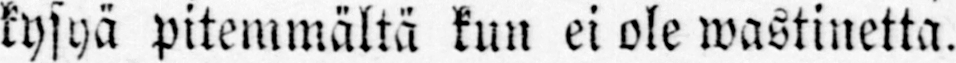kysyä pitemmältä kun ei ole wastinetta.
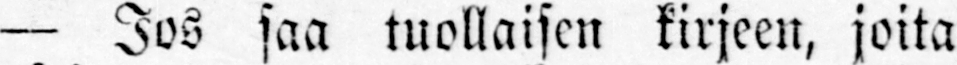— Jos saa tuollaisen kirjeen, joita
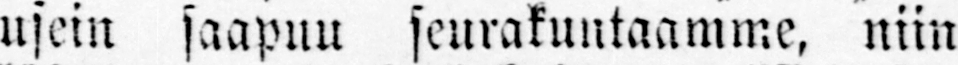usein saapuu seurakuntaamme, niin
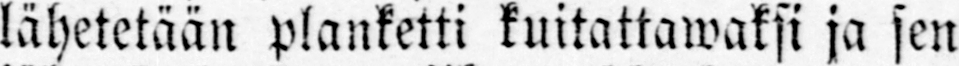lähetetään planketti kuitattawaksi ja sen
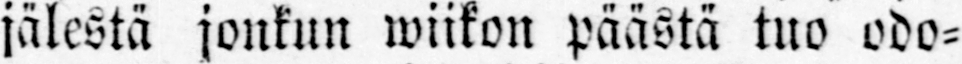jälestä jonkun wiikon päästä tuo odo-
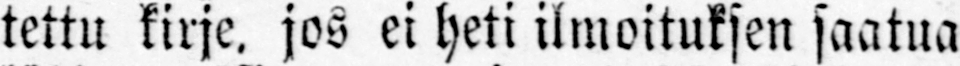tettu kirje, jos ei heti ilmoituksen saatua
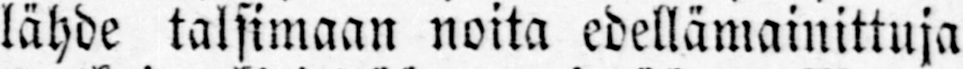lähde talsimaan noita edellämainittuja
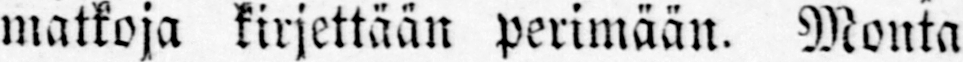matkoja kirjettään perimään. Monta
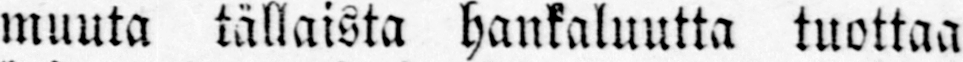muuta tällaista hankaluutta tuottaa
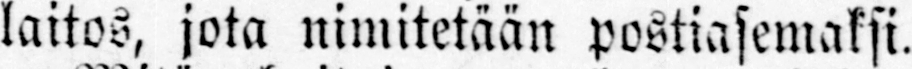laitos, jota nimitetään postiasemaksi.
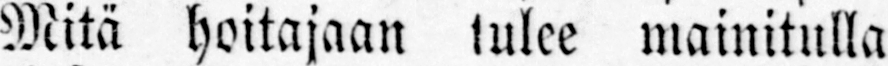Mitä hoitajaan tulee mainitulla
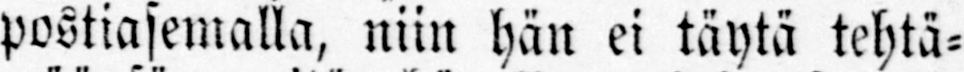postiasemalla, niin hän ei täytä tehtä-
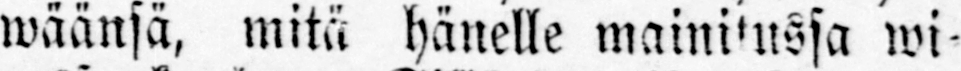wäänsä, mitä hänelle mainitussa wi-
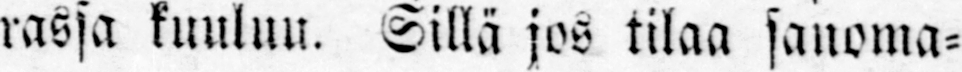rassa kuuluu. Sillä jos tilaa sanoma-
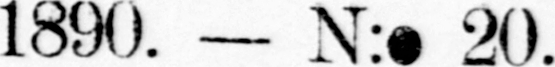1890. — N:o 20.
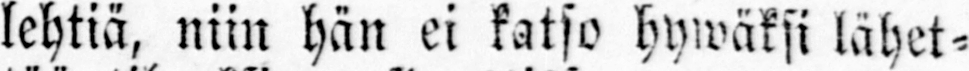lehtiä, niin hän ei katso hywäksi lähet-
